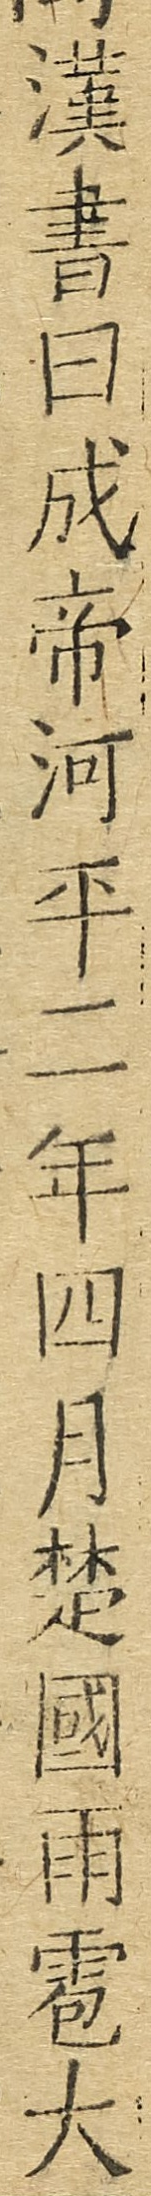漢書曰成帝河平二年四月楚國雨雹大
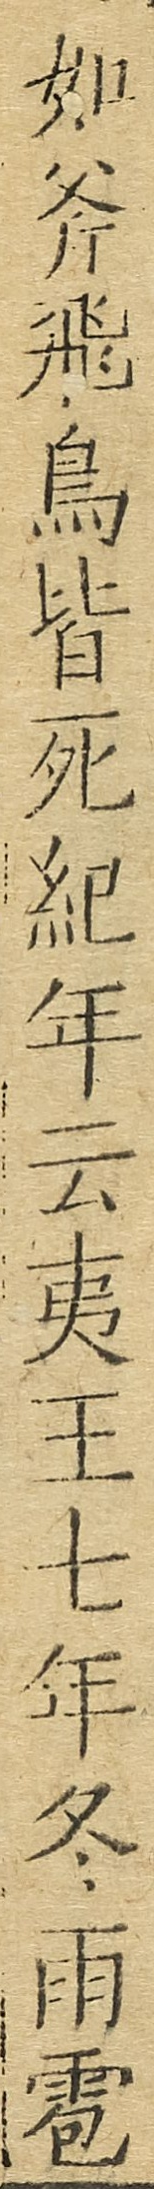如斧飛鳥皆死紀年云夷王七年冬雨雹
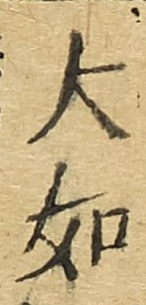大如
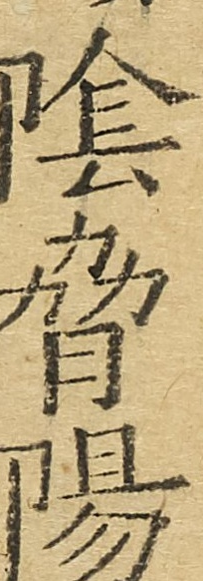陰脅陽
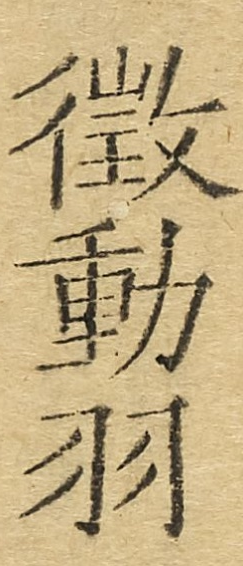徵動羽
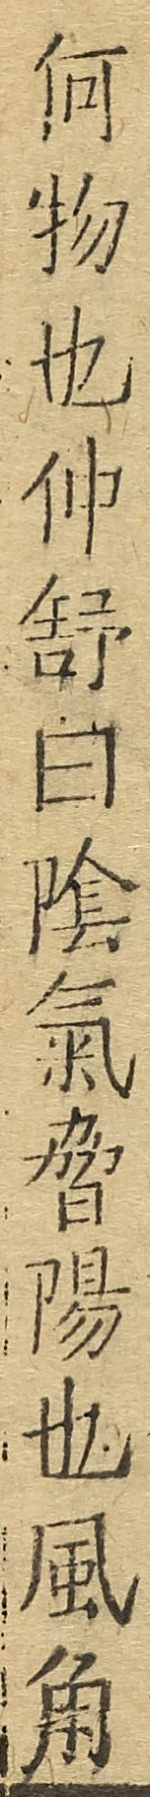何物也仲舒曰陰氣脅陽也風角
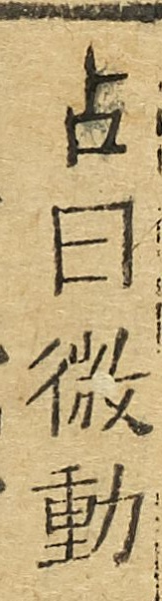占曰徵動
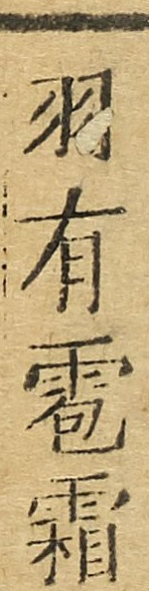羽有雹霜
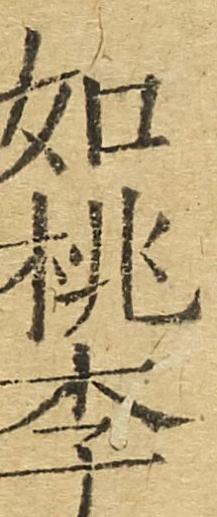如桃李
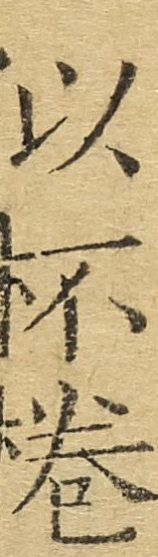似杯棬
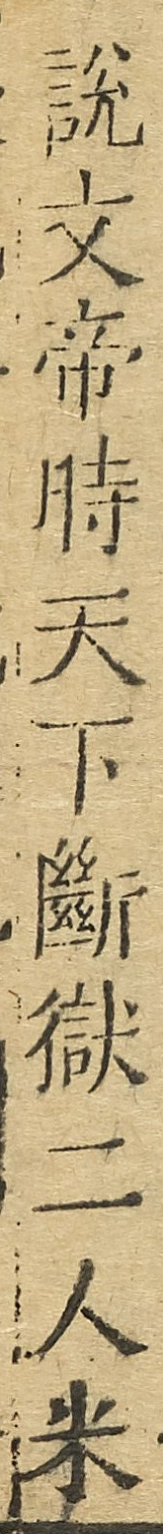說文帝時天下斷獄二人米
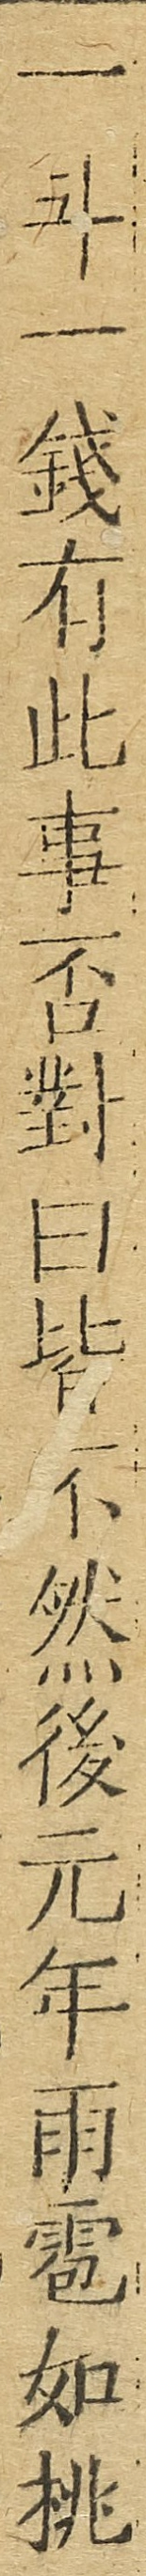一斗一錢有此事否對曰皆不然後元年雨雹如桃
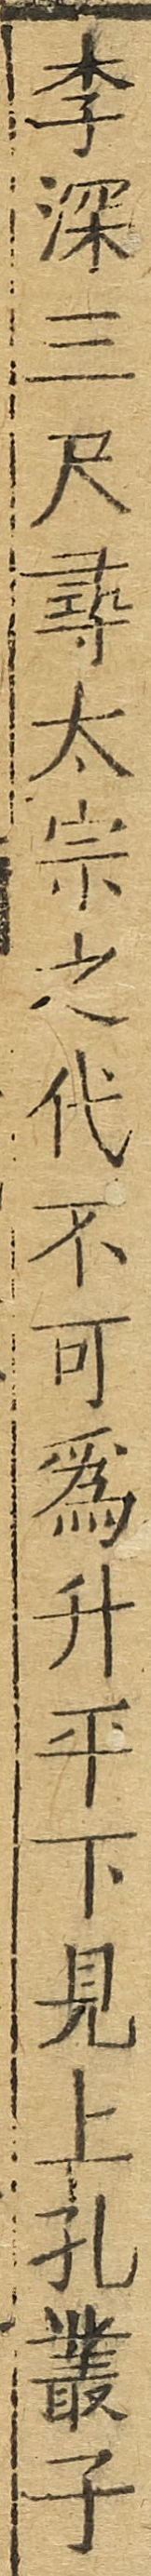李深二尺尋太宗之代不可爲升平下見上孔叢子
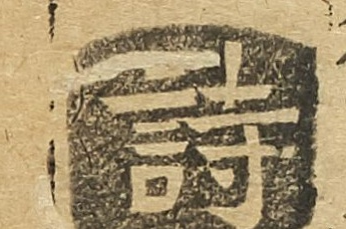詩
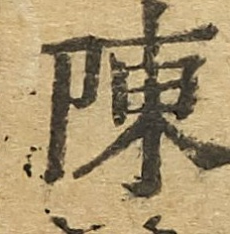陳
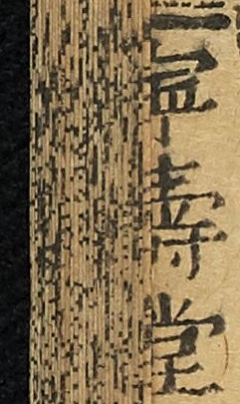寧壽堂
